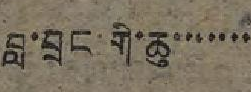བླ་བྲང་གི་ཆུ་་་་་་་
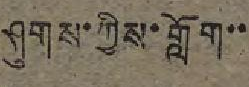ཤུགས་ཀྱིས་གློག་་
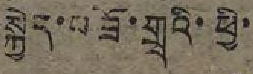སྐྱེད་བཟོ་གྲྭའི་ཕྱི་
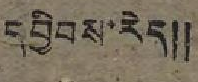དབྱིབས་རེད༎
